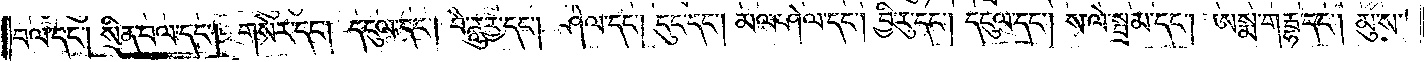བལ་དང༌། སྲིན་བལ་དང༌། གསེར་དང༌། དངུལ་དང༌། བཻ་ཌཱུཪྻ་དང༌། ཤེལ་དང༌། དུང་དང༌། མལ་ཤེལ་དང༌། བྱི་རུ་དང༌། དངུལ་དང༌། ས་ལེ་སྦྲམ་དང༌། ཨསྨ་གརྦྷ་དང༌། མུ་ས་
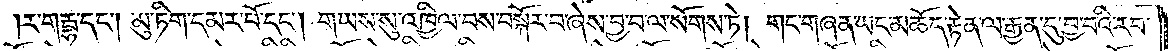ར་གརྦྷ་དང༌། མུ་ཏིག་དམར་པོ་དང༌། གཡས་སུ་འཁྱིལ་བས་བསྐོར་བ་ཞེས་བྱ་བ་ལ་སོགས་ཏེ། གང་གཞན་ཡང་མཆོད་རྟེན་ལ་རྒྱན་དུ་བྱ་བའི་རབ་
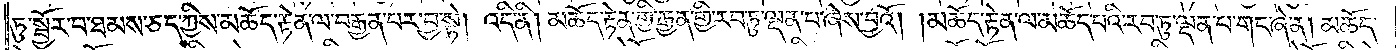ཏུ་སྦྱོར་བ་ཐམས་ཅད་ཀྱིས་མཆོད་རྟེན་ལ་བརྒྱན་པར་བྱ་སྟེ། འདི་ནི། མཆོད་རྟེན་གྱི་རྒྱན་གྱི་རབ་ཏུ་ལྡན་པ་ཞེས་བྱའོ། །མཆོད་རྟེན་ལ་མཆོད་པའི་རབ་ཏུ་ལྡན་པ་གང་ཞེ་ན། མཆོད་
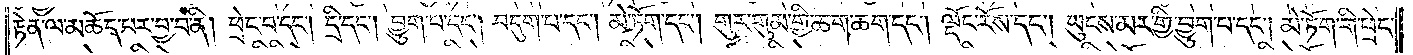རྟེན་ལ་མཆོད་པར་བྱ་བ་ནི། ཕྲེང་བ་དང༌། དྲི་དང༌། བྱུག་པ་དང༌། བདུག་པ་དང༌། མེ་ཏོག་དང༌། གུར་གུམ་གྱི་ཆག་ཆག་དང༌། ལྡོང་རོས་དང༌། ཡུངས་མར་གྱི་བྱུག་པ་དང༌། མེ་ཏོག་གི་ཕྲེང་
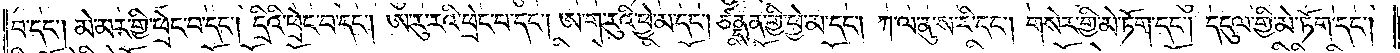བ་དང༌། མེ་མར་གྱི་ཕྲེང་བ་དང༌། དྲིའི་ཕྲེང་བ་དང༌། ཨ་རུ་རའི་ཕྲེང་པ་དང༌། ཨ་ག་རུའི་ཕྱེ་མ་དང༌། ཙནྡན་གྱི་ཕྱེ་མ་དང༌། ཀ་ལ་ནུ་ས་རི་དང༌། གསེར་གྱི་མེ་ཏོག་དང༌། དངུལ་གྱི་མེ་ཏོག་དང༌།
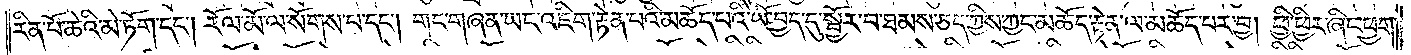རིན་པོ་ཆེའི་མེ་ཏོག་དང༌། རོལ་མོ་ལ་སོགས་པ་དང༌། གང་གཞན་ཡང་འཇིག་རྟེན་པའི་མཆོད་པའི་ཡོ་བྱད་དུ་སྦྱོར་བ་ཐམས་ཅད་ཀྱིས་ཀྱང་མཆོད་རྟེན་ལ་མཆོད་པར་བྱ། ཕྱི་ཕྱིར་ཞིང་ཕྱག་
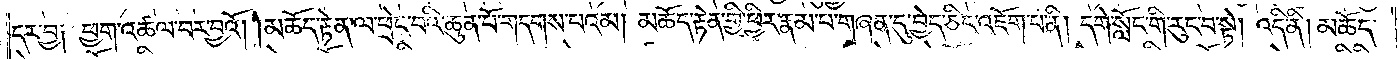དར་བྱ༑ ཕྱག་འཚལ་བར་བྱའོ། །མཆོད་རྟེན་ལ་ཕྲེང་བའི་ཆུན་པོ་གདགས་པའམ། མཆོད་རྟེན་གྱི་ཕྱིར་རྣམ་པ་གཞན་དུ་བྱེད་ཅིང་འཇོག་པ་ནི། དགེ་སློང་གི་རུང་བ་སྟེ། འདི་ནི། མཆོད་
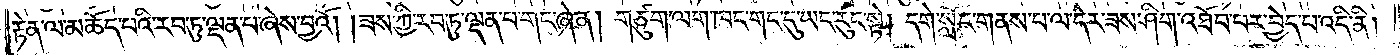རྟེན་ལ་མཆོད་པའི་རབ་ཏུ་ལྡན་པ་ཞེས་བྱའོ། །ཟས་ཀྱི་རབ་ཏུ་ལྡན་པ་གང་ཞེ་ན། གཙུག་ལག་ཁང་གང་དུ་ཡང་རུང་སྟེ། དགེ་སློང་གནས་པ་ལ་དེར་ཟས་ཤིག་འཐོབ་པར་བྱེད་པ་འདི་ནི།
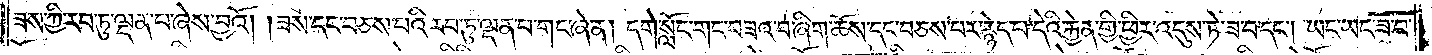ཟས་ཀྱི་རབ་ཏུ་ལྡན་པ་ཞེས་བྱའོ། །ཟས་དང་བཅས་པའི་རབ་ཏུ་ལྡན་པ་གང་ཞེ་ན། དགེ་སློང་གང་བཟའ་བ་ཞིག་ཆོས་དང་བཅས་པར་རྙེད་པ་དེའི་རྐྱེན་གྱི་ཕྱིར་འདུས་ཏེ་ཟ་བ་དང༌། ཡང་ཡང་ཟ་བ་
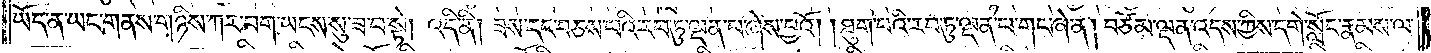ཡོད་ན་ཡང་གནས་གཉིས་ཀར་བག་ཡངས་སུ་ཟ་བ་སྟེ། འདི་ནི། ཟས་དང་བཅས་པའི་རབ་ཏུ་ལྡན་པ་ཞེས་བྱའོ། །ཐུག་པའི་རབ་ཏུ་ལྡན་པ་གང་ཞེ་ན། བཅོམ་ལྡན་འདས་ཀྱིས་དགེ་སློང་རྣམས་ལ་
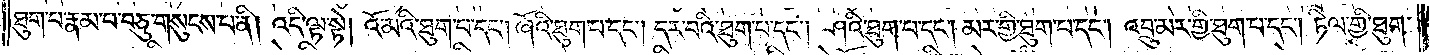ཐུག་པ་རྣམ་པ་བཅུ་གསུངས་པ་ནི། འདི་ལྟ་སྟེ། འོ་མའི་ཐུག་པ་དང༌། ཞོའི་ཐུག་པ་དང༌། དར་བའི་ཐུག་པ་དང༌། ཤའི་ཐུག་པ་དང༌། མར་གྱི་ཐུག་པ་དང༌། འབྲུ་མར་གྱི་ཐུག་པ་དང༌། ཏིལ་གྱི་ཐུག་
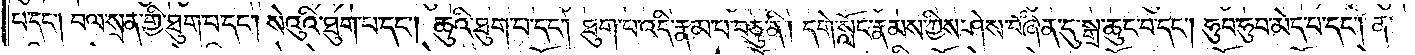པ་དང༌། བལ་སྲན་གྱི་ཐུག་པ་དང༌། སེའུའི་ཐུག་པ་དང༌། ཆུའི་ཐུག་པ་དང༌། ཐུག་པ་འདི་རྣམ་པ་བཅུ་ནི། དགེ་སློང་རྣམས་ཀྱིས་ཤེས་བཞིན་དུ་སྒྲ་ཆུང་བ་དང༌། ཧུབ་ཧུབ་མེད་པ་དང༌། ན་
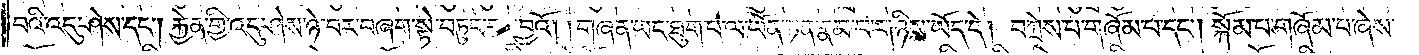བའི་འདུ་ཤེས་དང༌། རྐྱེན་གྱི་འདུ་ཤེས་ཉེ་བར་བཞག་སྟེ་བཏུང་བར་བྱའོ། །གཞན་ཡང་ཐུག་པ་ལ་ཡོན་ཏན་རྣམ་པ་གཉིས་ཡོད་དེ། བཀྲེས་པ་གཞོམ་པ་དང༌། སྐེམ་པ་གཞོམ་པ་ཞེས་
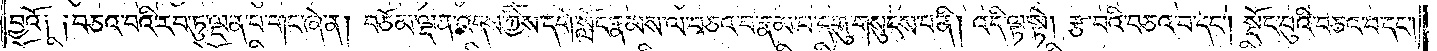བའོ༑ ༑བཅའ་བའི་རབ་ཏུ་ལྡན་པ་གང་ཞེ་ན། བཅོམ་ལྡན་འདས་ཀྱིས་དགེ་སློང་རྣམས་ལ་བཅའ་བ་རྣམ་པ་དགུ་གསུངས་པ་ནི། འདི་ལྟ་སྟེ། རྩ་བའི་བཅའ་བ་དང༌། སྡོང་བུའི་བཅའ་བ་དང༌།
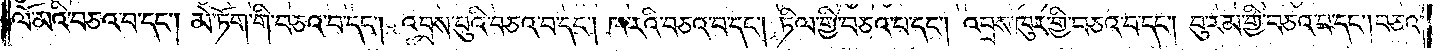ལོ་མའི་བཅའ་བ་དང༌། མེ་ཏོག་གི་བཅའ་བ་དང༌། འབྲས་བུའི་བཅའ་བ་དང༌། ཁ་རའི་བཅའ་བ་དང༌། ཏིལ་གྱི་བཅའ་བ་དང༌། འབྲས་ཁུར་གྱི་བཅའ་བ་དང༌། བུ་རམ་གྱི་བཅའ་བ་དང༌། བཅའ་
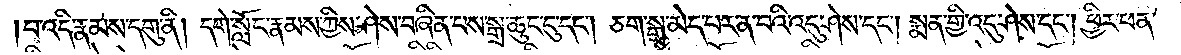བ་འདི་རྣམས་དགུ་ནི། དགེ་སློང་རྣམས་ཀྱིས་ཤེས་བཞིན་པས་སྒྲ་ཆུང་ངུ་དང༌། ཅག་སྒྲ་མེད་པར་ན་བའི་འདུ་ཤེས་དང༌། སྨན་གྱི་འདུ་ཤེས་དང༌། ཕྱིར་ཕན་
